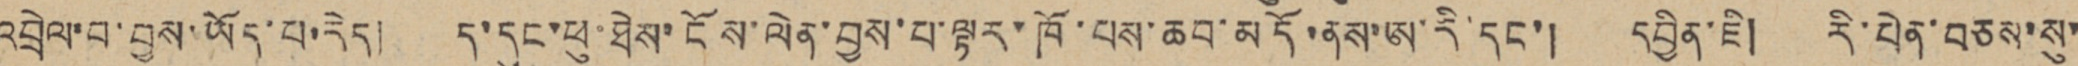འབྲེལ་བ་བྱས་ཡོད་པ་རེད། ད་དུང་ཕུ་ཐེས་ངོས་ལེན་བྱས་པ་ལྟར་ཁོ་པས་ཆབ་མདོ་ནས་ཨ་རི་དང་། དབྱིན་ཇི། རི་པེན་བཅས་སུ་
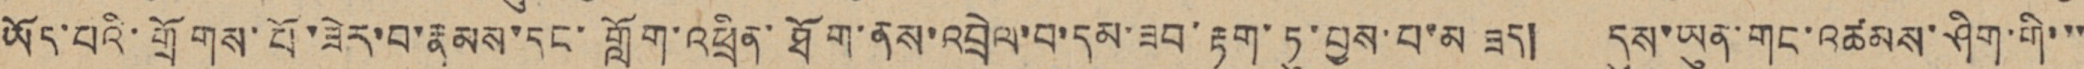ཡོད་པའི་གྲོགས་པོ་ཟེར་བ་རྣམས་དང་གློག་འཕྲིན་ཐོག་ནས་འབྲེལ་བ་དམ་ཟབ་རྟག་ཏུ་བྱས་པ་མ ཟད། དུས་ཡུན་གང་འཚམས་ཤིག་གི་་་
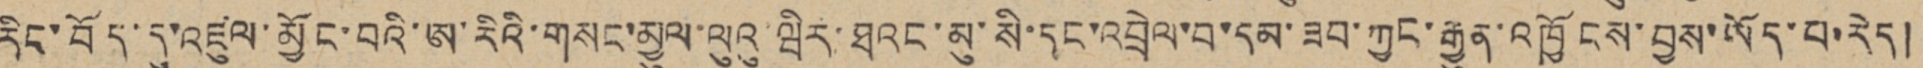རིང་བོད་དུ་འཛུལ་མྱོང་བའི་ཨ་རིའི་གསང་མྱུལ་ལུའུ་ཝིར་ཐའང་མུ་སི་དང་འབྲེལ་བ་དམ་ཟབ་ཀྱང་རྒྱུན་འཁྱོངས་བྱས་ཡོད་པ་རེད།
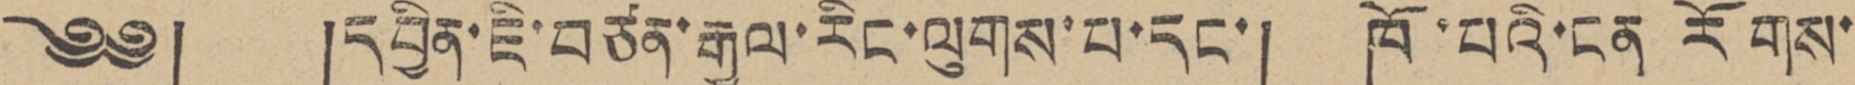༄༅། །དབྱིན་ཇི་བཙན་རྒྱལ་རིང་ལུགས་པ་དང་། ཁོ་པའི་ངན རོགས་
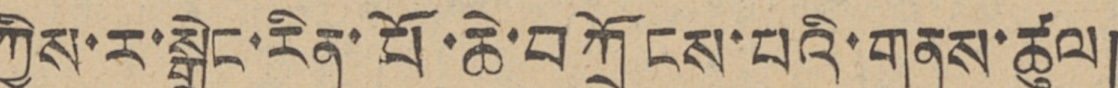ཀྱིས་ར་སྒྲེང་རིན་པོ་ཆེ་བཀྲོངས་པའི་གནས་ཚུལ།
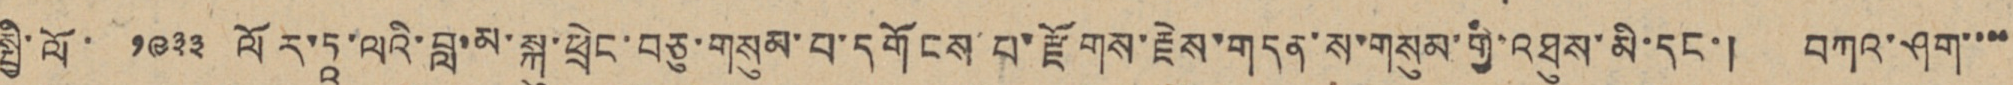སྤྱི་ལོ་ ༡༩༣༣ ལོར་ཏཱ་ལའི་བླ་མ་སྐུ་ཕྲེང་བཅུ་གསུམ་པ་དགོངས་པ་རྫོགས་རྗེས་གདན་ས་གསུམ་གྱི་འཐུས་མི་དང་། བཀའ་ཤག་་་་
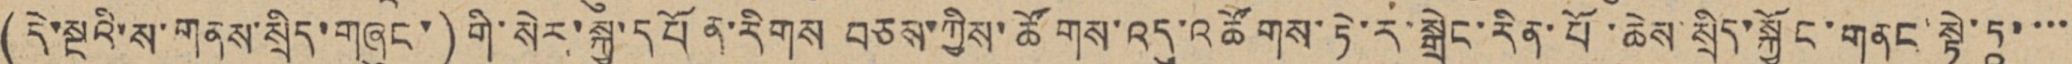(དེ་སྔའི་ས་གནས་སྲིད་གཞུང་)གི་སེར་སྐྱ་དཔོན་རིགས བཅས་ཀྱིས་ཚོགས་འདུ་འཚོགས་ཏེ་ར་སྒྲེང་རིན་པོ་ཆེས་སྲིད་སྐྱོང་གནང་སྟེ་ཏཱ་་་་
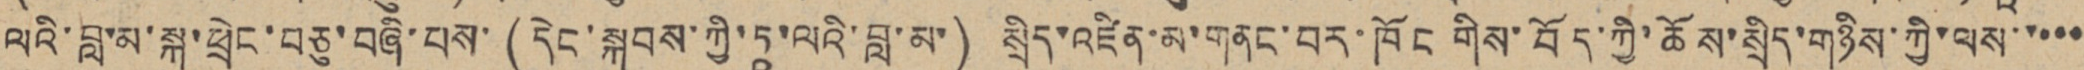ལའི་བླ་མ་སྐུ་ཕྲེང་བཅུ་བཞི་པས་ (དེང་སྐབས་ཀྱི་ཏཱ་ལའི་བླ་མ་) སྲིད་འཛིན་མ་གནང་བར་ཁོང གིས་བོད་ཀྱི་ཆོས་སྲིད་གཉིས་ཀྱི་ལས་་་་་
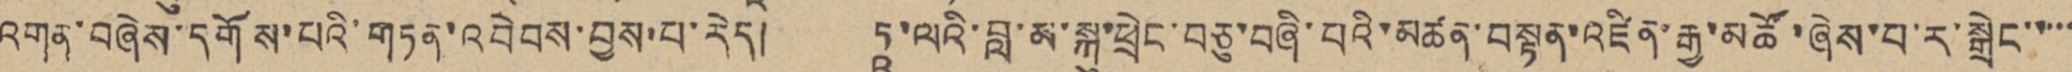འགན་བཞེས་དགོས་པའི་གཏན་འབེབས་བྱས་པ་རེད། ཏཱ་ལའི་བླ་མ་སྐུ་ཕྲེང་བཅུ་བཞི་པའི་མཚན་བསྟན་འཛིན་རྒྱ་མཚོ་ཞེས་པ་ར་སྒྲེང་་་་་
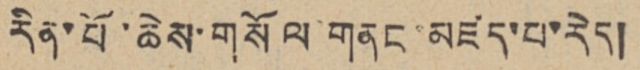རིན་པོ་ཆེས་གསོལ་གནང་མཛད་པ་རེད།
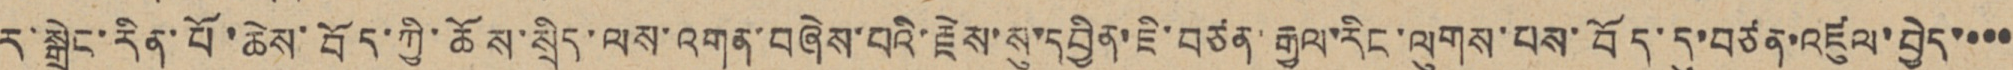ར་སྒྲེང་རིན་པོ་ཆེས་བོད་ཀྱི་ཆོས་སྲིད་ལས་འགན་བཞེས་པའི་རྗེས་སུ་དབྱིན་ཇི་བཙན་རྒྱལ་རིང་ལུགས་པས་བོད་དུ་བཙན་འཛུལ་བྱེད་་་་
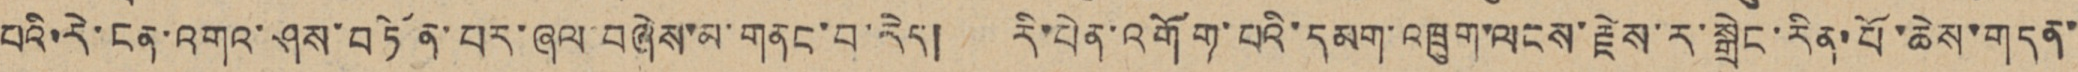པའི་རེ་ངན་འགའ་ཤས་བཏོན་པར་ཞལ་བཞེས་མ་གནང་བ་རེད། རི་པེན་འགོག་པའི་དམག་འཁྲུག་ལངས་རྗེས་ར་སྒྲེང་རིན་པོ་ཆེས་གདན་
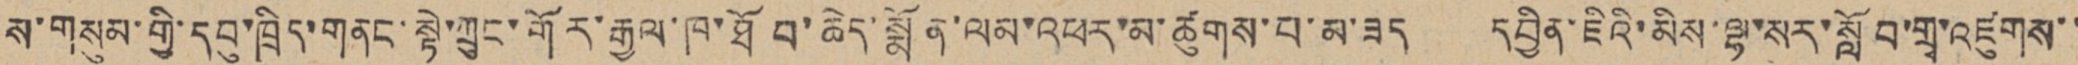ས་གསུམ་གྱི་དབུ་ཁྲིད་གནང་སྟེ་ཀྲུང་གོར་རྒྱལ་ཁ་ཐོབ་ཆེད་སྨོན་ལམ་འཕར་མ་ཚུགས་པ་མ་ཟད། དབྱིན་ཇིའི་མིས་ལྷ་སར་སློབ་གྲྭ་འཛུགས་་
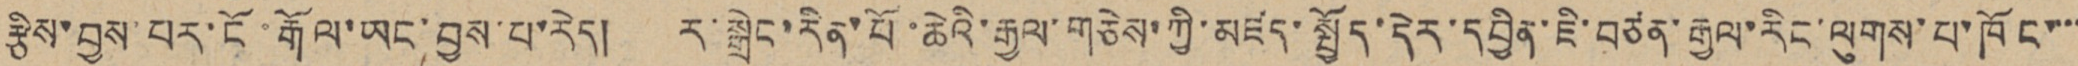རྩིས་བྱས་པར་ངོ་རྒོལ་ཡང་བྱས་པ་རེད། ར་སྒྲེང་རིན་པོ་ཆེའི་རྒྱལ་གཅེས་ཀྱི་མཛད་སྤྱོད་དེར་དབྱིན་ཇི་བཙན་རྒྱལ་རིང་ལུགས་པ་ཁོང་་་་
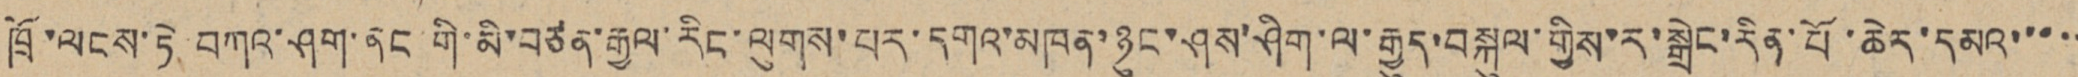ཁྲོ་ལངས་ཏེ་བཀའ་ཤག་ནང གི་མི་བཙན་རྒྱལ་རིང་ལུགས་པར་དགའ་མཁན་ཉུང་ཤས་ཤིག་ལ་རྒྱུད་བསྐུལ་གྱིས་ར་སྒྲེང་རིན་པོ་ཆེར་དམའ་་་་་
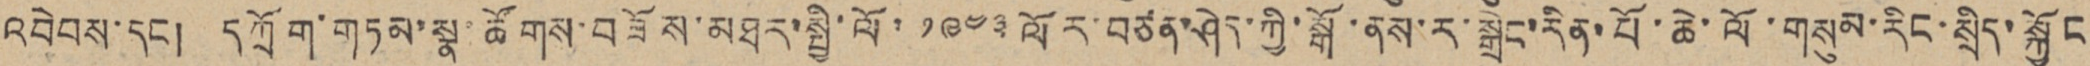འབེབས་དང། དཀྲོག་གཏམ་སྣ་ཚོགས་བཟོས་མཐར་སྤྱི་ལོ་ ༡༩༤༣ ལོར་བཙན་ཤེད་ཀྱི་སྒོ་ནས་ར་སྒྲེང་རིན་པོ་ཆེ་ལོ་གསུམ་རིང་སྲིད་སྐྱོང
